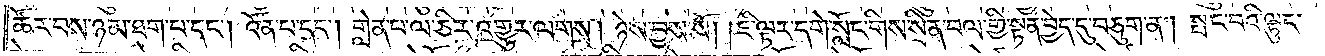ཚོར་བས་ཉམ་ཐག་པ་དང༌། འོན་པ་དང༌། གླེན་པ་ལ་ཅིར་འགྱུར་ལགས། ཉེས་བྱས་སོ། །ཇི་ལྟར་དགེ་སློང་གིས་སྲིན་བལ་གྱི་སྟན་བྱེད་དུ་བཅུག་ན། སྤང་བའི་ལྟུང་
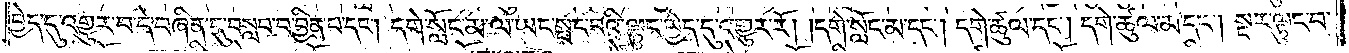བྱེད་དུ་འགྱུར་བ་དེ་བཞིན་དུ་བསླབ་བ་བྱིན་པ་དང༌། དགེ་སློང་མ་ལ་ཡང་སྤང་བའི་ལྟུང་བྱེད་དུ་འགྱུར་རོ། །དགེ་སློང་མ་དང༌། དགེ་ཚུལ་དང༌། དགེ་ཚུལ་མ་དང༌། སྔར་ལྟུང་བ་
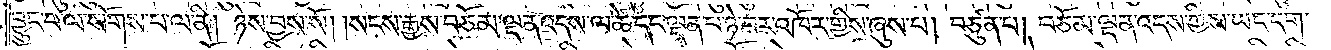བྱུང་བ་ལ་སོགས་པ་ལ་ནི། ཉེས་བྱས་སོ། །སངས་རྒྱས་བཅོམ་ལྡན་འདས་ལ་ཚེ་དང་ལྡན་པ་ཉེ་བར་འཁོར་གྱིས་ཞུས་པ། བཙུན་པ། བཅོམ་ལྡན་འདས་ཀྱིས་ཡང་དག་
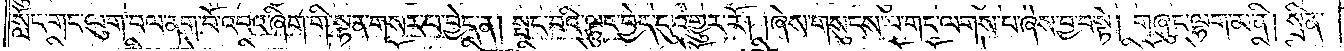སློང་གང་ལུག་བལ་ནག་པོ་འབའ་ཞིག་གི་སྟན་གསར་པ་བྱེད་ན། སྤང་བའི་ལྟུང་བྱེད་དུ་འགྱུར་རོ། །ཞེས་གསུངས་པ་གང་ལགས་པ་ཞེས་བྱ་བ་སྟེ། གཞུང་ལྷག་མ་ནི། སྲིན་
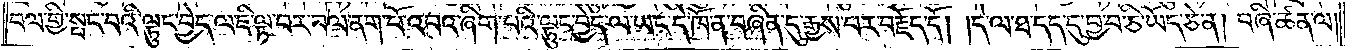བལ་གྱི་སྤང་བའི་ལྟུང་བྱེད་ལ་ཇི་ལྟ་བར་བལ་ནག་པོ་འབའ་ཞིག་པའི་ལྟུང་བྱེད་ལ་ཡང་དེ་ཁོ་ན་བཞིན་དུ་རྒྱས་པར་བརྗོད་དོ། །དེ་ལ་ཐ་དད་དུ་བྱ་བ་ཅི་ཡོད་ཅེ་ན། བཞི་ཚན་ལ།
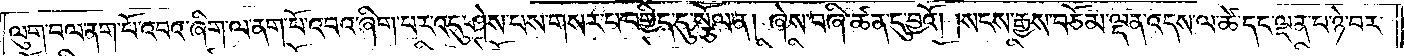ལུག་བལ་ནག་པོ་འབའ་ཞིག་ལ་ནག་པོ་འབའ་ཞིག་པར་འདུ་ཤེས་པས་གསར་བ་བགྱིད་དུ་སྩོལ་ན། ཞེས་བཞི་ཚན་དུ་བྱའོ། །སངས་རྒྱས་བཅོམ་ལྡན་འདས་ལ་ཚེ་དང་ལྡན་པ་ཉེ་བར་
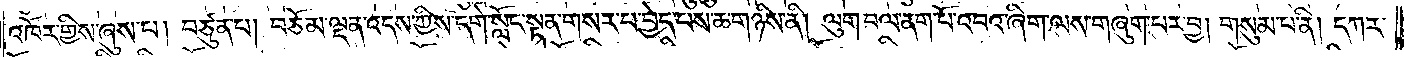འཁོར་གྱིས་ཞུས་པ། བཙུན་པ། བཅོམ་ལྡན་འདས་ཀྱིས་དགེ་སློང་སྟན་གསར་པ་བྱེད་པས་ཆ་གཉིས་ནི། ལུག་བལ་ནག་པོ་འབའ་ཞིག་ལས་གཞུག་པར་བྱ། གསུམ་པ་ནི། དཀར་
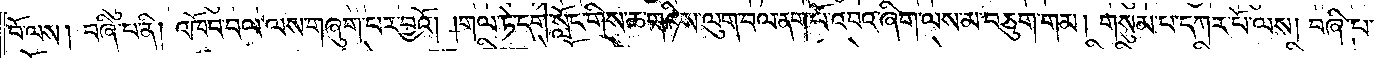བོ་ལས། བཞི་པ་ནི། འཁོབ་བལ་ལས་གཞུག་པར་བྱའོ། །གལ་ཏེ་དགེ་སློང་གིས་ཆ་གཉིས་ལུག་བལ་ནག་པོ་འབའ་ཞིག་ལས་མ་བཅུག་གམ། གསུམ་པ་དཀར་པོ་ལས། བཞི་པ་
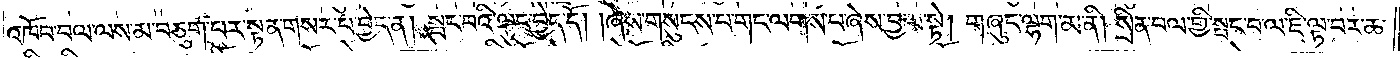འཁོབ་བལ་ལས་མ་བཅུག་པར་སྟན་གསར་པ་བྱེད་ན། སྤང་བའི་ལྟུང་བྱེད་དོ། །ཞེས་གསུངས་པ་གང་ལགས་པ་ཞེས་བྱ་བ་སྟེ། གཞུང་ལྷག་མ་ནི། སྲིན་བལ་གྱི་སྤང་བ་ལ་ཇི་ལྟ་བར་ཆ་
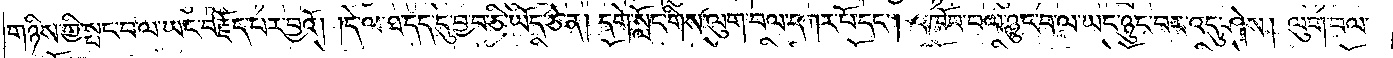གཉིས་ཀྱི་སྤང་བ་ལ་ཡང་བརྗོད་པར་བྱའོ། །དེ་ལ་ཐ་དད་དུ་བྱ་བ་ཅི་ཡོད་ཅེ་ན། དགེ་སློང་གིས་ལུག་བལ་དཀར་པོ་དང༌། འཁོབ་བལ་ཉུང་བ་ལ་ཡང་ཉུང་བར་འདུ་ཤེས། ལུག་བལ་
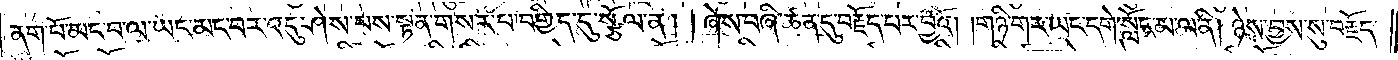ནག་པོ་མང་བ་ལ་ཡང་མང་བར་འདུ་ཤེས་པས་སྟན་གསར་པ་བགྱིད་དུ་སྩོལ་ན། །ཞེས་བཞི་ཚན་དུ་བརྗོད་པར་བྱའོ། །གཉི་གར་ཡང་དགེ་སློང་མ་ལ་ནི། ཉེས་བྱས་སུ་བརྗོད་
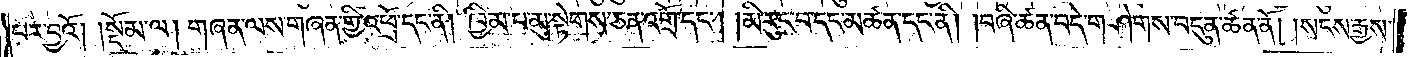པར་བྱའོ།    །སྡོམ་ལ། གཞན་ལས་གཞན་གྱི་འཕྲོ་དང་ནི། ཁྱིམ་པ་མུ་སྟེགས་ཅན་འགྲོ་དང༌། །མི་རུང་བ་དང་མཚན་དང་ནི། །བཞི་ཚན་བདེ་གཤེགས་བདུན་ཚན་ནོ། །སངས་རྒྱས་
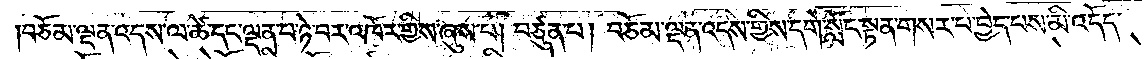།བཅོམ་ལྡན་འདས་ལ་ཚེ་དང་ལྡན་པ་ཉེ་བར་འཁོར་གྱིས་ཞུས་པ། བཙུན་པ། བཅོམ་ལྡན་འདས་ཀྱིས་དགེ་སློང་སྟན་གསར་པ་བྱེད་པས་མི་འདོད་
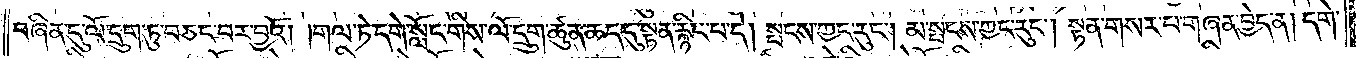བཞིན་དུ་ལོ་དྲུག་ཏུ་བཅང་བར་བྱའོ། །གལ་ཏེ་དགེ་སློང་གིས་ལོ་དྲུག་ཚུན་ཆད་དུ་སྟན་རྙིང་པ་དེ། སྤངས་ཀྱང་རུང༌། མ་སྤངས་ཀྱང་རུང༌། སྟན་གསར་པ་གཞན་བྱེད་ན། དགེ་
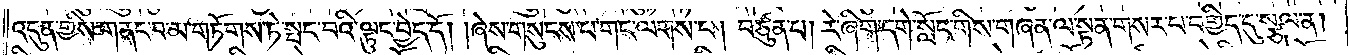འདུན་གྱིས་གནང་བ་མ་གཏོགས་ཏེ་སྤང་བའི་ལྟུང་བྱེད་དོ། །ཞེས་གསུངས་པ་གང་ལགས་པ། བཙུན་པ། རེ་ཞིག་དགེ་སློང་གིས་གཞན་ལ་སྟན་གསར་པ་བགྱིད་དུ་སྩལ་ན།
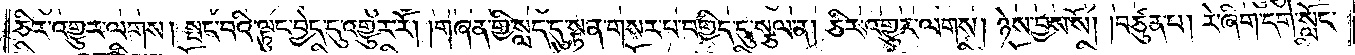ཅིར་འགྱུར་ལགས། སྤང་བའི་ལྟུང་བྱེད་དུ་འགྱུར་རོ། །གཞན་གྱི་སླད་དུ་སྟན་གསར་པ་བགྱིད་དུ་སྩལ་ན། ཅིར་འགྱུར་ལགས། ཉེས་བྱས་སོ། །བཙུན་པ། རེ་ཞིག་དགེ་སློང་
